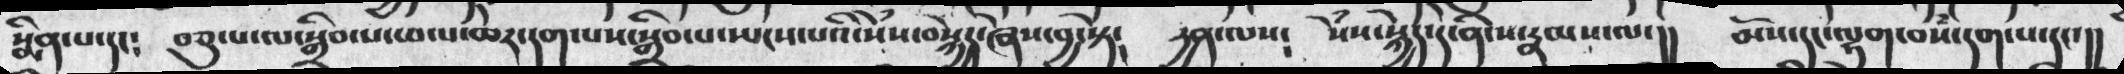སྨིན་པ་དང༴  བཅུ་པ་ལ་སྒྲིབ་པ་ཕལ་ཆད་དག་པས་སྒྲིབ་པ་ཡངས་པའི་སེཾས་བསྐྱེད་ཞེས་བྱ་སྟེ༴  དྱན་ལས༴  སེཾས་སྐྱེད་དེ་ནི་ས་རྣམས་ལ་།།  མོས་དང་ལྷག་བསཾ་དག་པ་དང་།།
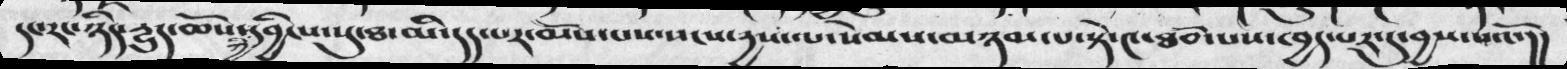དང་རང་ཉིད་དྱུད་ཆོས་ཀྱི་དབྱིངས་སུ་ཐ་མི་དད་པར་མོས་པས་སངས་དྱས་ལ་སེམས་མཉམ་པ་སྟེ་༤་ཐོབ་པས་ཁྱད་པར་དུ་བྱས་པའོ་།།
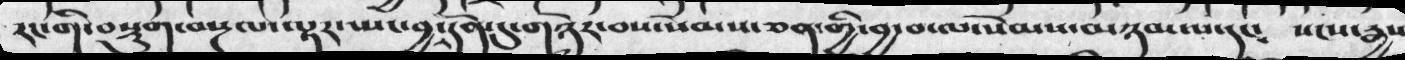རང་གི་བསྡུག་བསྔལ་ལྟར་ཡང་བྱ་དོན་དུ་གཉེར་བས་སེམས་ཅན་གྱི་བྱ་བ་ལ་སེམས་མཉམ་པ་དང༴  སངས་རྒྱས
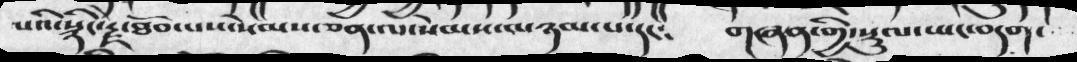པའི་སྙིང་རྗེ་ཐོབ་པས་སེམས་ཅན་ལ་སེམས་མཉམ་པ་དང༴  གཞན་གྱི་སྡུལ་ཡང་བདག་
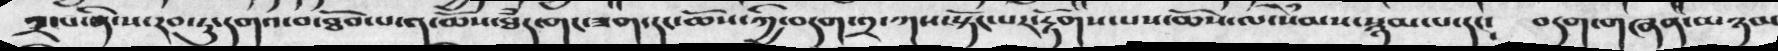༢་པ་ནི་ས་རབ་ཏུ་དགའ་བ་ཐོབ་པ་ན་ཆོས་ཐཾད་གང་ཟག་དང་ཆོས་ཀྱི་བདག་༢་ཀས་སྟོང་པར་རྟོགས་པས་ཆོས་ལ་སེམས་སྙམ་པ་དང༴  བདག་གཞན་མཉམ
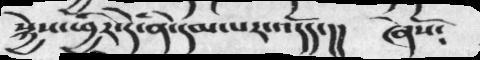སྐྱེས་ཕྱིར་ནི་དམ་པར་འདོད་།།  ཞེསོ༴
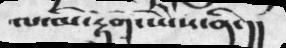དེ་མི་རྟོག་ཡེེས་ནི་།།
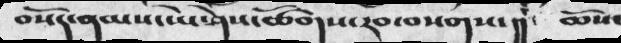བསོད་ནམས་ཡེ་ཤེས་ཚོགས་རབ་བསགས་།།  ཆོས་
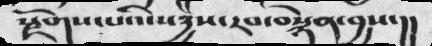རྫོགས་པའི་སདྱས་རབ་བསྙེན་བྱས་།།
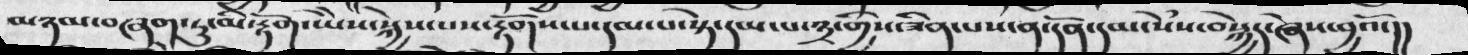མཉམ་བཞག་ཏུ་མི་རྟོག་ཡེེས་སྐྱེས་པས་རྟོགས་པ་དམ་པ་སྟེ་དམ་པ་༣་གྱིས་ཟིན་པས་ན་དོན་དམ་སེཾས་བསྐྱེད་ཞེས་བྱའོ་།།
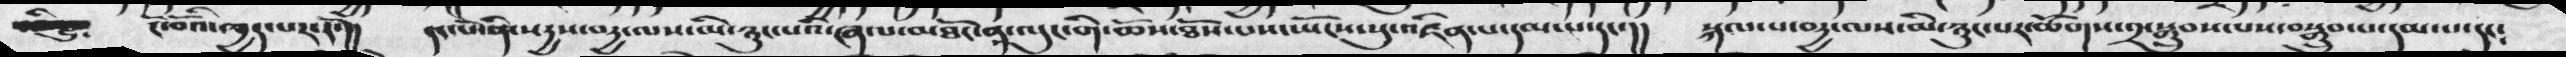ངོ་བོའི་ཁྱད་པར་རོ་།།  དང་པོ་ནི་སདྱས་བདྱ་ལས་མི་ཉུང་པའི་ཞལ་མཐོང་ན་ལུང་གི་ཆོས་ཐོས་པས་ཡོངས་སུ་འཛིན་པ་དམ་པ་དང་།  སྐལ་པ་བདྱ་ལས་མི་ཉུང་པར་ཚོགས་༢་སྒྲུབས་པས་བསྒྲུབ་པ་དམ་པ་དང༴
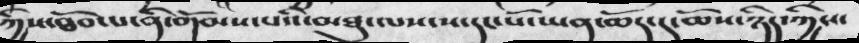ཀྱིས་ཐོབ་པ་ནི་གོམས་པའི་མཐུ་ལས་ས་དང་པོ་ཡན་ཆོད་དུ་ཆོས་ཉིད་ཀྱིས་
